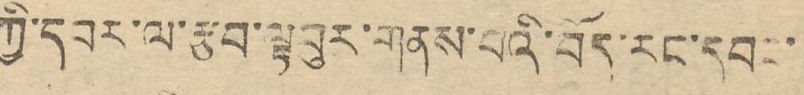ཀྱི་དབར་ལ་རྩབ་ལྟ་བུར་གན་པའི་བོད་རང་དབང་
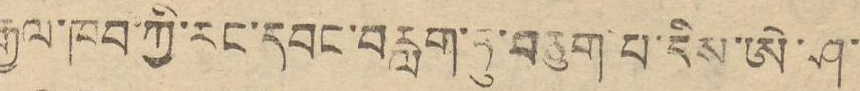རྒྱལ་ཁབ་ཀྱི་རང་དབང་བརླག་ཏུ་བཅུག་པ་དིས་ཨེ་ཤ་
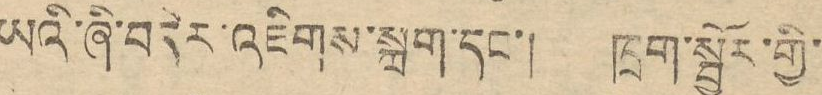ཡའི་ཞི་བདེར་འཇིགས་སྐྲག་དང་། ཁྲག་སྤྱོར་གྱི་
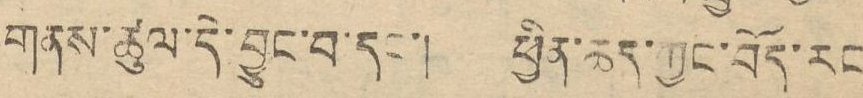གནས་ཚུལ་དེ་བྱུང་བ་དང་། ཕྱིན་ཆད་ཀྱང་བོད་རང
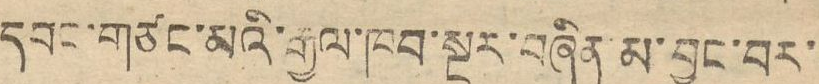དབང་གཙང་མའི་རྒྱལ་ཁབ་སྔར་བཞིན་མ་བྱུང་བར་
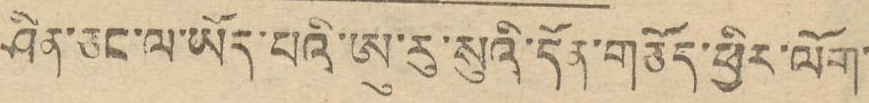ཤིན་ཅང་ལ་ཡོད་པའི་ཨུ་རུ་སུའི་དོན་གཅོད་ཕྱིར་ལོག་
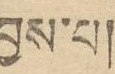བྱས་པ།
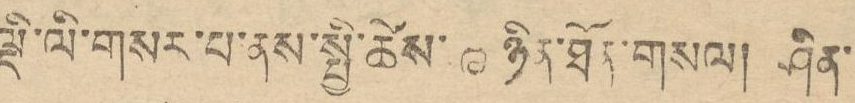ལྡི་ལི་གསར་པ་ནས་སྤྱི་ཚེས་ ༩ ཉིན་ཐོན་གསལ། ཤིན་
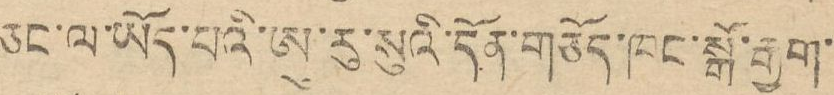ཅང་ལ་ཡོད་པའི་ཨུ་རུ་སུའི་དོན་གཅོད་ཁང་སྒོ་རྒྱག་
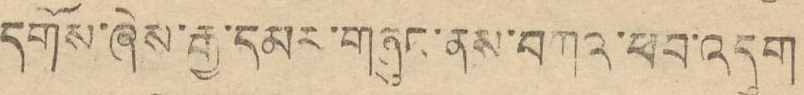དགོས་ཞེས་རྒྱ་དམར་གཞུང་ན་བཀའ་ཕབ་འདུག
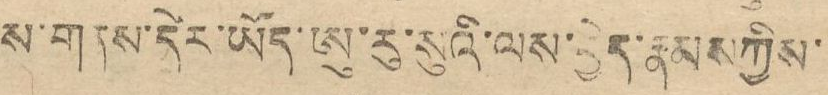ས་གནས་དེར་ཡོད་ཨུ་རུ་སུའི་ལས་བྱེད་རྣམས ཀྱིས་
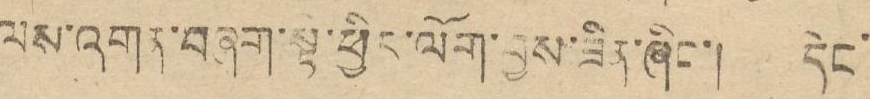ལས་འགན་བཞག་སྟེ་ཕྱིར་ལོག་བྱས་ཟིན་ཞིང་། དེང་
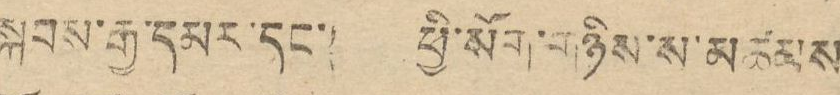སྐབས་རྒྱ་དམར་དང་། ཕྱི་སོག་གཉིས་ས་མཚམས
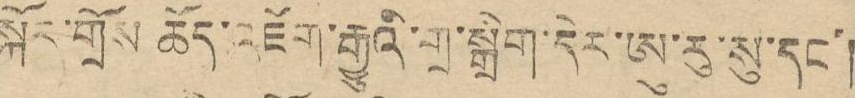སྐོར་གྲོས ཆོད་འཇོག་རྒྱུའི་གྲ་སྒྲིག་དེར་ཨུ་རུ་སུ་དང་།
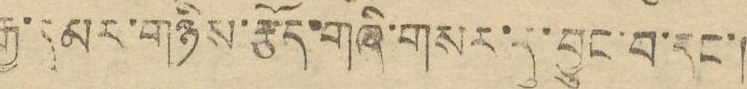རྒྱ་དམར་གཉིས་རྩོད་གཞི་གསར་དུ་བྱུང་བ་དང་།
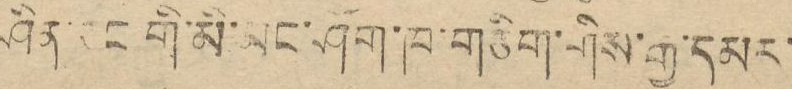ཤིན་ཅང་གི་མི་མང་ཤོག་ཁ་གཅིག་གིས་རྒྱ་དམར་
